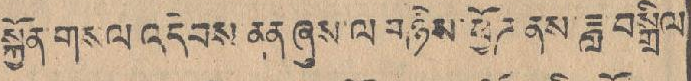སྐྱོན་གསལ་འདེབས་ནན་ཞུས་ལ་གཉིས་ཕྱོཊ ནས ཟླ་བསྒྲིལ་
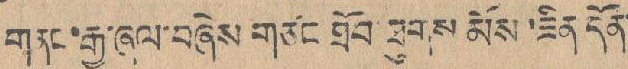གནང་རྒྱུ་ཞལ་བཞེས་གཙང་ཐོབ་ཐུགས མོས་ཟིན་དོན་
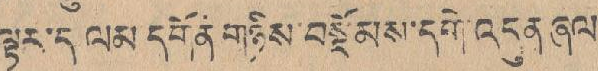ལྟར་ད ལམ་དགོན གཉིས་བསྡོམས་དགེ་འདུན་ཞལ་
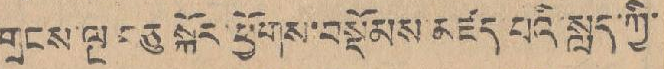གྲངས་ལྔ བཅུ སྐོར་ཕྱོགས་བསྡོམས་མཛད པའི་སླད་ཀྱི་
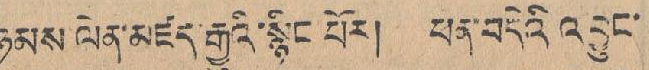ཉམས ལེན་མཛད་རྒྱུའི་སྙིང་པོར། ཕན་བདེའི འབྱུང་
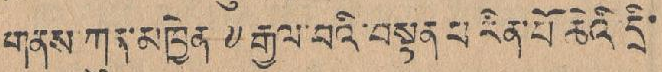གནས་ཀུན་མཁྱེན་༸རྒྱལ་བའི་བསྟན་པ་རིན་པོ ཆེའི དྲི་
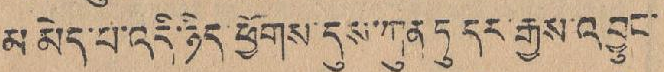མ མེད་པ་འདི་ཉིད་ཕྱོགས་དུས་ཀུན ཏུ དར་རྒྱས་འབྱུང་
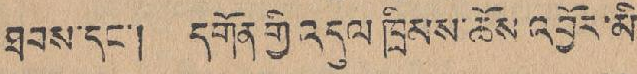ཐབས་དང་། དགོན་གྱི འདུལ ཁྲིམས་ཆོས འབྱོར་མི་
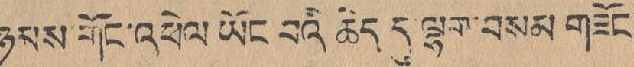ཉམས གོང་འཕེལ་ཡོང བའི ཆེད དུ་ལྷག་བསམ་གཟོང་
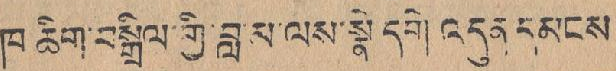ཁ ཆིག་བསྒྲིལ་གྱི་བླ་མ་ལས་སྣེ དགེ འདུན དམངས་
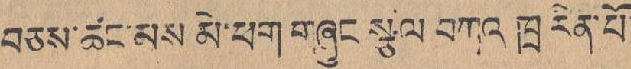བཅས་ཚང་མས་མེ་ཕག གཞུང སྩལ བཀའ ཁྲ རིན་པོ་
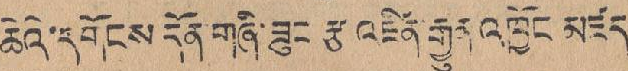ཆེའི་དགོངས དོམ གཞི་ཟུང རྩ་འཛིན་རྒྱུན་འཁྱོང མཛད་
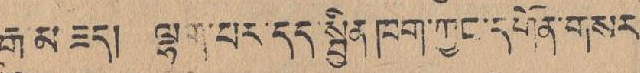རྒྱུ མ་ཟད། ལྷག་པར་དད་སྤྱིན་ཁག་ཀྱང་དགོན་གསར་
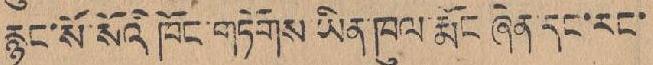རྙང་སོ་སོའི ཁོང་གཏོགས་ཡིན་ཁུལ་རྨོང ཞེན་དང་རང་
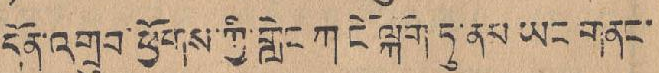དོན་འགྲུབ་ཕྱོགས་ཀྱི་གླེང ཀ ངོ ལྐོག་ཏུ་ནམ་ཡང་གནང་
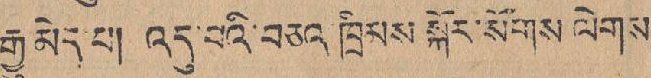རྒྱུ་མེད་པ། འདུ་བའི་བཅའ་ཁྲིམས་སྐོར་སོགས ལེགས་
